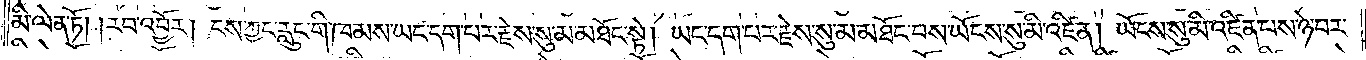མི་ལེན་ཏོ། །རབ་འབྱོར། ངས་ཀྱང་རླུང་གི་ཁམས་ཡང་དག་པར་རྗེས་སུ་མ་མཐོང་སྟེ། ཡང་དག་པར་རྗེས་སུ་མ་མཐོང་བས་ཡོངས་སུ་མི་འཛིན། ཡོངས་སུ་མི་འཛིན་པས་ཉེ་བར་
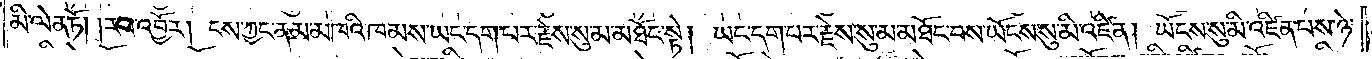མི་ལེན་ཏོ། །རབ་འབྱོར། ངས་ཀྱང་ནམ་མཁའི་ཁམས་ཡང་དག་པར་རྗེས་སུ་མ་མཐོང་སྟེ། ཡང་དག་པར་རྗེས་སུ་མ་མཐོང་བས་ཡོངས་སུ་མི་འཛིན། ཡོངས་སུ་མི་འཛིན་པས་ཉེ་
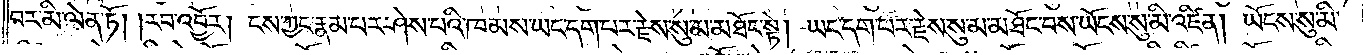བར་མི་ལེན་ཏོ། །རབ་འབྱོར། ངས་ཀྱང་རྣམ་པར་ཤེས་པའི་ཁམས་ཡང་དག་པར་རྗེས་སུ་མ་མཐོང་སྟེ། ཡང་དག་པར་རྗེས་སུ་མ་མཐོང་བས་ཡོངས་སུ་མི་འཛིན། ཡོངས་སུ་མི་
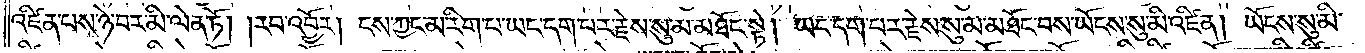འཛིན་པས་ཉེ་བར་མི་ལེན་ཏོ། །རབ་འབྱོར། ངས་ཀྱང་མ་རིག་པ་ཡང་དག་པར་རྗེས་སུ་མ་མཐོང་སྟེ། ཡང་དག་པར་རྗེས་སུ་མ་མཐོང་བས་ཡོངས་སུ་མི་འཛིན། ཡོངས་སུ་མི་
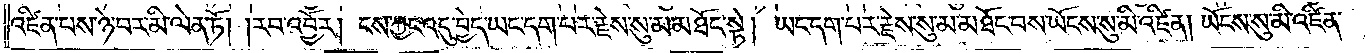འཛིན་པས་ཉེ་བར་མི་ལེན་ཏོ། །རབ་འབྱོར། ངས་ཀྱང་འདུ་བྱེད་ཡང་དག་པར་རྗེས་སུ་མ་མཐོང་སྟེ། ཡང་དག་པར་རྗེས་སུ་མ་མཐོང་བས་ཡོངས་སུ་མི་འཛིན། ཡོངས་སུ་མི་འཛིན་
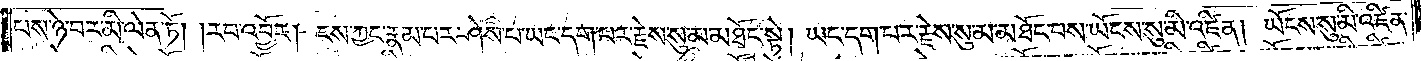པས་ཉེ་བར་མི་ལེན་ཏོ། །རབ་འབྱོར། ངས་ཀྱང་རྣམ་པར་ཤེས་པ་ཡང་དག་པར་རྗེས་སུ་མ་མཐོང་སྟེ། ཡང་དག་པར་རྗེས་སུ་མ་མཐོང་བས་ཡོངས་སུ་མི་འཛིན། ཡོངས་སུ་མི་འཛིན་
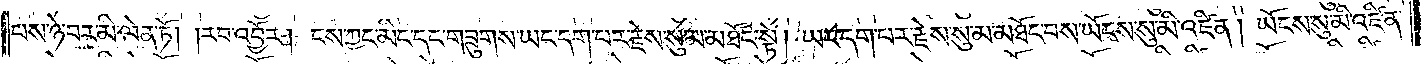པས་ཉེ་བར་མི་ལེན་ཏོ། །རབ་འབྱོར། ངས་ཀྱང་མིང་དང་གཟུགས་ཡང་དག་པར་རྗེས་སུ་མ་མཐོང་སྟེ། ཡང་དག་པར་རྗེས་སུ་མ་མཐོང་བས་ཡོངས་སུ་མི་འཛིན། ཡོངས་སུ་མི་འཛིན་
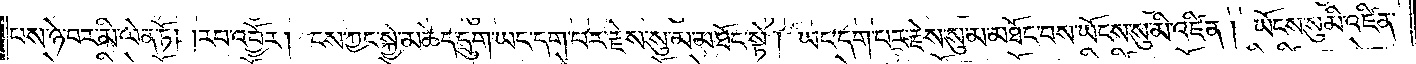པས་ཉེ་བར་མི་ལེན་ཏོ། །རབ་འབྱོར། ངས་ཀྱང་སྐྱེ་མཆེད་དྲུག་ཡང་དག་པར་རྗེས་སུ་མ་མཐོང་སྟེ། ཡང་དག་པར་རྗེས་སུ་མ་མཐོང་བས་ཡོངས་སུ་མི་འཛིན། ཡོངས་སུ་མི་འཛིན་
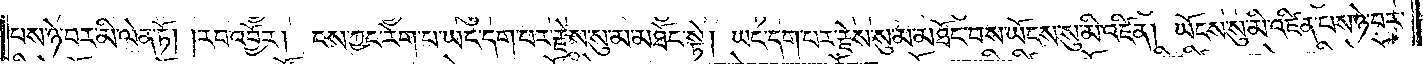པས་ཉེ་བར་མི་ལེན་ཏོ། །རབ་འབྱོར། ངས་ཀྱང་རེག་པ་ཡང་དག་པར་རྗེས་སུ་མ་མཐོང་སྟེ། ཡང་དག་པར་རྗེས་སུ་མ་མཐོང་བས་ཡོངས་སུ་མི་འཛིན། ཡོངས་སུ་མི་འཛིན་པས་ཉེ་བར་
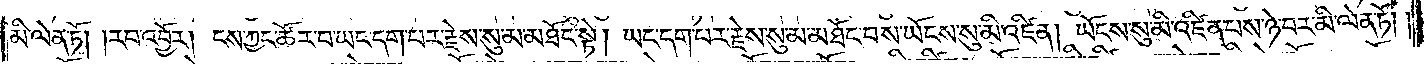མི་ལེན་ཏོ། །རབ་འབྱོར། ངས་ཀྱང་ཚོར་བ་ཡང་དག་པར་རྗེས་སུ་མ་མཐོང་སྟེ། ཡང་དག་པར་རྗེས་སུ་མ་མཐོང་བས་ཡོངས་སུ་མི་འཛིན། ཡོངས་སུ་མི་འཛིན་པས་ཉེ་བར་མི་ལེན་ཏོ། །
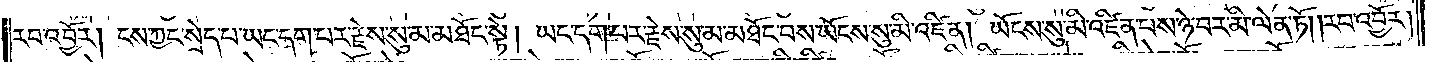རབ་འབྱོར། ངས་ཀྱང་སྲིད་པ་ཡང་དག་པར་རྗེས་སུ་མ་མཐོང་སྟེ། ཡང་དག་པར་རྗེས་སུ་མ་མཐོང་བས་ཡོངས་སུ་མི་འཛིན། ཡོངས་སུ་མི་འཛིན་པས་ཉེ་བར་མི་ལེན་ཏོ། །རབ་འབྱོར།
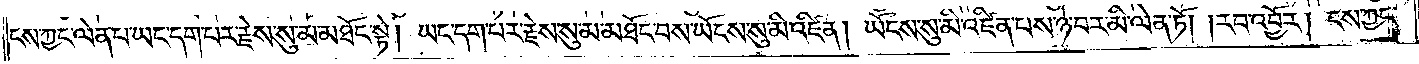ངས་ཀྱང་ལེན་པ་ཡང་དག་པར་རྗེས་སུ་མ་མཐོང་སྟེ། ཡང་དག་པར་རྗེས་སུ་མ་མཐོང་བས་ཡོངས་སུ་མི་འཛིན། ཡོངས་སུ་མི་འཛིན་པས་ཉེ་བར་མི་ལེན་ཏོ། །རབ་འབྱོར། ངས་ཀྱང་
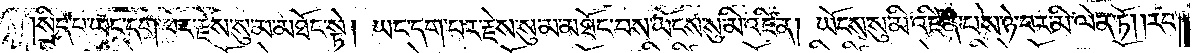སྲིད་པ་ཡང་དག་པར་རྗེས་སུ་མ་མཐོང་སྟེ། ཡང་དག་པར་རྗེས་སུ་མ་མཐོང་བས་ཡོངས་སུ་མི་འཛིན། ཡོངས་སུ་མི་འཛིན་པས་ཉེ་བར་མི་ལེན་ཏོ། །རབ་
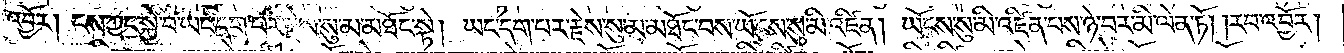འབྱོར། ངས་ཀྱང་སྐྱེ་བ་ཡང་དག་པར་རྗེས་སུ་མ་མཐོང་སྟེ། ཡང་དག་པར་རྗེས་སུ་མ་མཐོང་བས་ཡོངས་སུ་མི་འཛིན། ཡོངས་སུ་མི་འཛིན་པས་ཉེ་བར་མི་ལེན་ཏོ། །རབ་འབྱོར།
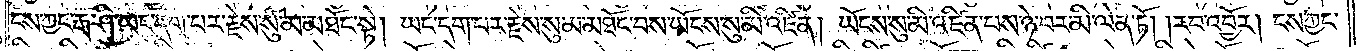ངས་ཀྱང་རྒ་ཤི་ཡང་དག་པར་རྗེས་སུ་མ་མཐོང་སྟེ། ཡང་དག་པར་རྗེས་སུ་མ་མཐོང་བས་ཡོངས་སུ་མི་འཛིན། ཡོངས་སུ་མི་འཛིན་པས་ཉེ་བར་མི་ལེན་ཏོ། །རབ་འབྱོར། ངས་ཀྱང་
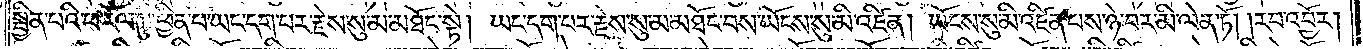སྦྱིན་པའི་ཕ་རོལ་ཏུ་ཕྱིན་པ་ཡང་དག་པར་རྗེས་སུ་མ་མཐོང་སྟེ། ཡང་དག་པར་རྗེས་སུ་མ་མཐོང་བས་ཡོངས་སུ་མི་འཛིན། ཡོངས་སུ་མི་འཛིན་པས་ཉེ་བར་མི་ལེན་ཏོ། །རབ་འབྱོར།
